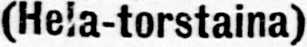(Hela-torstaina)
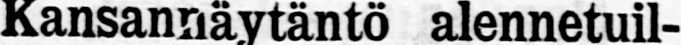Kansannäytäntö alennetuil-
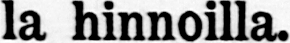la hinnoilla.
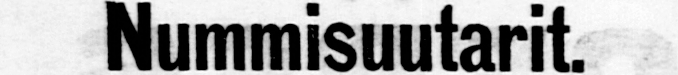Nummisuutarit.
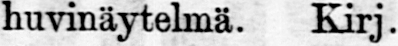5-näytöksinen huvinäytelmä. Kirj.
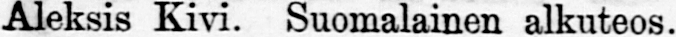Aleksis Kivi. Suomalainen alkuteos.
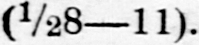(½8—11).
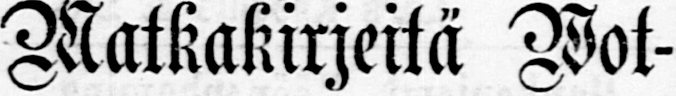Matkakirjeitä Wot-
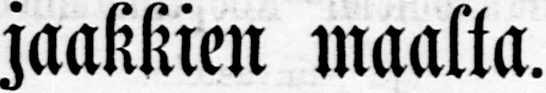jaakkien maalta.
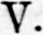V.
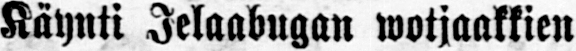Käynti Jelaabugan wotjaakkien
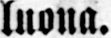luona.
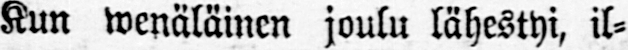Kun wenäläinen joulu lähestyi, il-
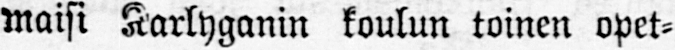maisi Karlyganin koulun toinen opet-
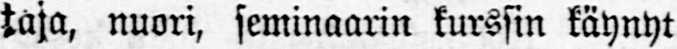taja, nuori, seminaarin kurssin käynyt
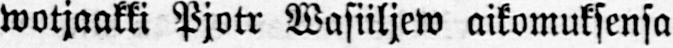wotjaakki Pjotr Wasiiljew aikomuksensa
